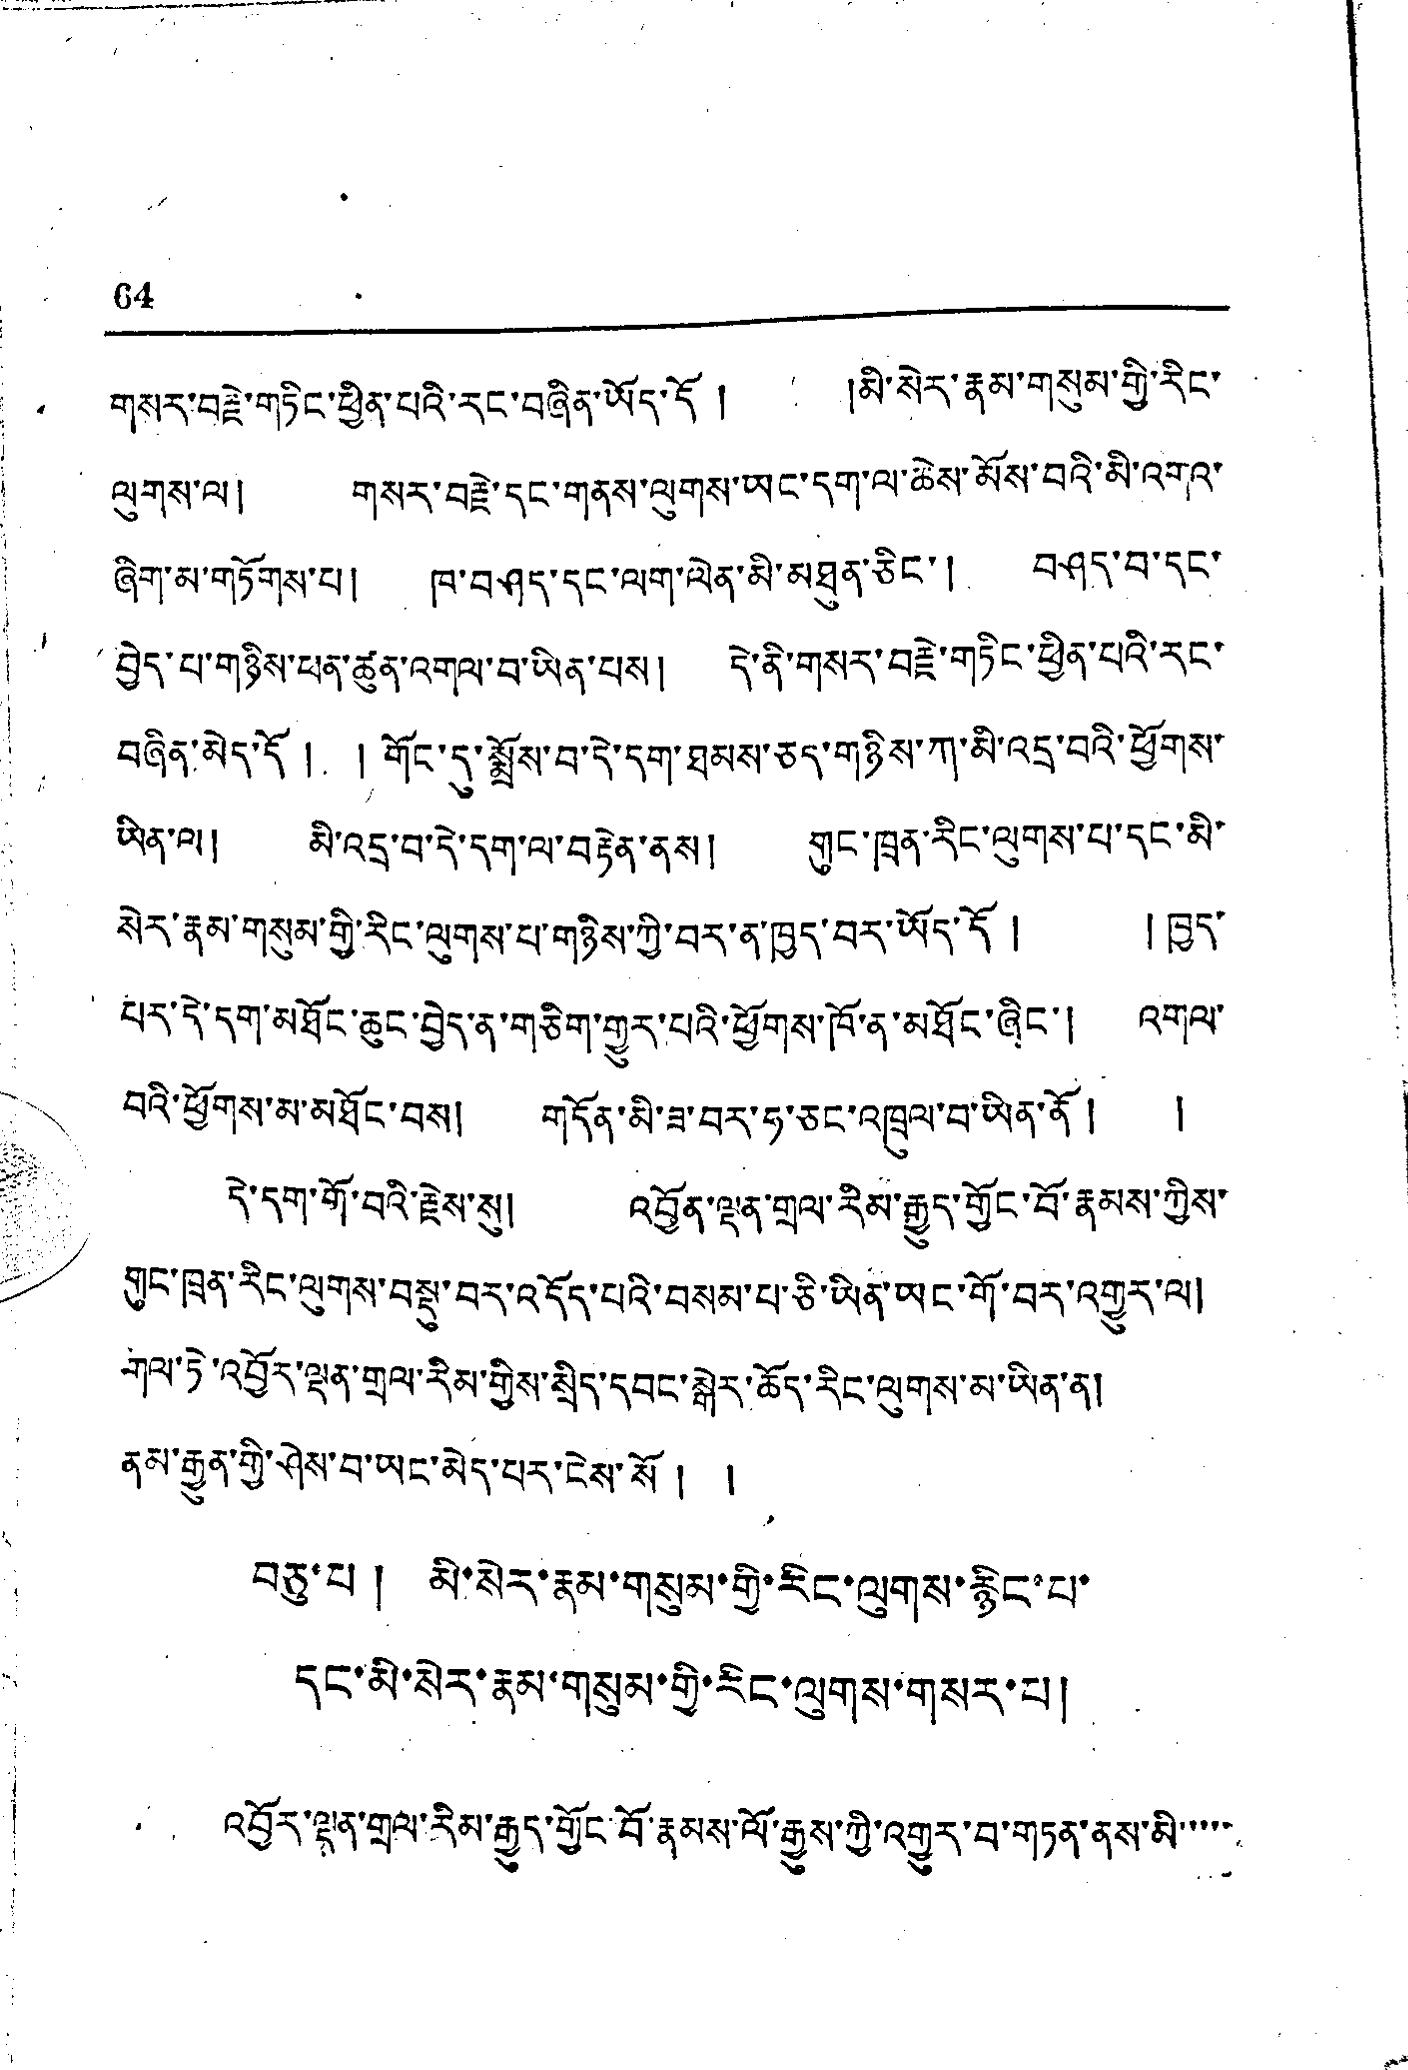64
གསར་བརྗེ་གཏིང་ཕྱིན་པའི་རང་བཞིན་ཡོད་དོ ། །མི་སེར་རྣམ་གསུམ་གྱི་རིང་
ལུགས་ལ། གསར་བརྗེ་དང་གནས་ལུགས་ཡང་དག་ལ་ཆེས་མོས་བའི་མི་འགའ་
ཞིག་མ་གཏོགས་པ། ཁ་བཤད་དང་ལག་ལེན་མི་མཐུན་ཅིང་། བཤད་བ་དང་
བྱེད་པ་གཉིས་ཕན་ཚུན་འགལ་བ་ཡིན་པས། དེ་ནི་གསར་བརྗེ་གཏིང་ཕྱིན་པའི་རང་
བཞིན་མེད་དོ ། །གོང་དུ་སྨོས་བ་དེ་དག་ཐམས་ཅད་གཉིས་ཀ་མི་འདྲ་བའི་ཕྱོགས་
ཡིན་ལ། མི་འདྲ་བ་དེ་དག་ལ་བརྟེན་ནས། གུང་ཁྲན་རིང་ལུགས་པ་དང་མི་
སེར་རྣམ་གསུམ་གྱི་རིང་ལུགས་པ་གཉིས་ཀྱི་བར་ན་ཁྱད་བར་ཡོད་དོ། །ཁྱད་
པར་དེ་དག་མཐོང་ཆུང་བྱེད་ན་གཅིག་གྱུར་པའི་ཕྱོགས་ཁོ་ན་མཐོང་ཞིང་། འགུལ་
བའི་ཕྱོགས་མ་མཐོང་བས། གདོན་མི་ཟ་བར་ཧ་ཅང་འཁྲུལ་བ་ཡིན་ནོ ། །
དེ་དག་གོ་བའི་རྗེས་སུ། འབྱོན་ལྡན་གྲལ་རིམ་རྒྱུད་གྱོང་བོ་རྣམས་ཀྱིས་
གུང་ཁྲན་རིང་ལུགས་བསྡུ་བར་འདོད་པའི་བསམ་པ་ཅི་ཡིན་ཡང་གོ་བར་འགྱུར་ལ།
གལ་ཏེ་འབྱོར་ལྡན་གྲལ་རིམ་གྱིས་སྲིད་དབང་སྒེར་ཆོད་རིང་ལུགས་མ་ཡིན་ན།
ནམ་རྒྱུན་གྱི་ཤེས་བ་ཡང་མེད་པར་ངེས་སོ། །
བཅུ་པ། མི་སེར་རྣམ་གསུམ་གྱི་རིང་ལུགས་རྙིང་པ་
དང་མི་སེར་རྣམ་གསུམ་གྱི་རིང་ལུགས་གསར་པ།
འབྱོར་ལྡན་གྲལ་རིམ་རྒྱུད་གྱོང་བོ་རྣམས་ལོ་རྒྱུས་ཀྱི་འགྱུར་བ་གཏན་ནས་་མི་་་་་
